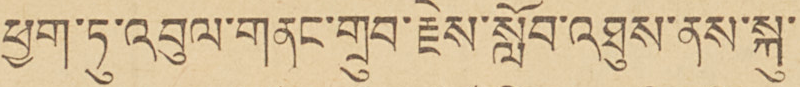ཕྱག་ཏུ་འབུལ་གནང་གྲུབ་རྗེས་སློབ་འཐུས་ནས་སྐུ་
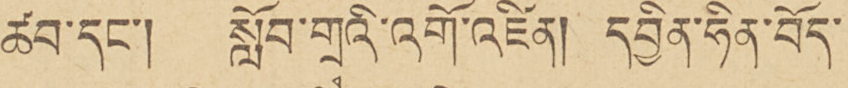ཚབ་དང་། སློབ་གྲྭའི་འགོ་འཛིན། དབྱིན་ཧིན་བོད་
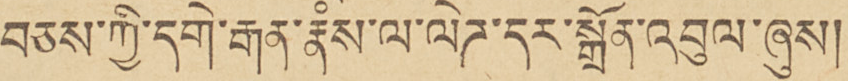བཅས་ཀྱི་དགེ་རྒན་རྣཾས་ལ་ལེཊ་དར་སྒྲོན་འབུལ་ཞུས།
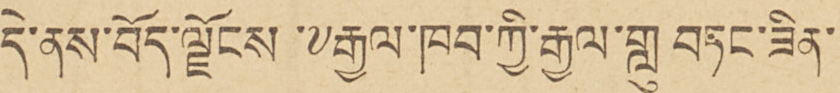དེ་ནས་བོད་ལྗོངས་༸རྒྱལ་ཁབ་ཀྱི་རྒྱལ་གླུ་བཏང་ཟིན་
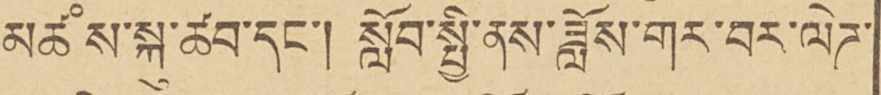མཚཾས་སྐུ་ཚབ་དང་། སློབ་སྤྱི་ནས་ཟློས་གར་བར་ལེཊ་
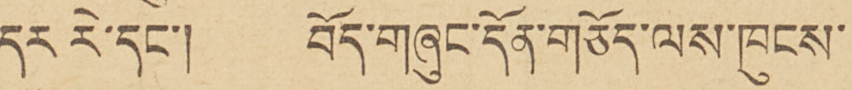དར རེ་དང་། བོད་གཞུང་དོན་གཅོད་ལས་ཁུངས་
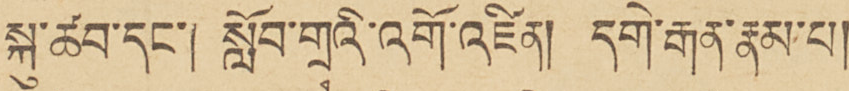སྐུ་ཚབ་དང་། སློབ་གྲྭའི་འགོ་འཛིན། དགེ་རྒན་རྣམ་པ།
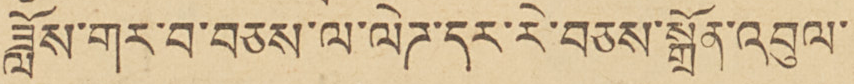ཟློས་གར་བ་བཅས་ལ་ལེཊ་དར་རེ་བཅས་སྒྲོན་འབུལ་
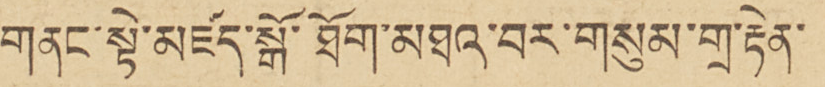གནང་སྟེ་མཛད་སྒོ་ཐོག་མཐའ་བར་གསུམ་གྲ་རྟེན་
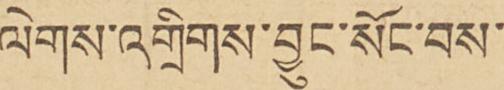ལེགས་འགྲིགས་བྱུང་སོང་བས་
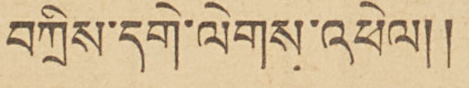བཀྲིས་དགེ་ལེགས་འཕེལ།།
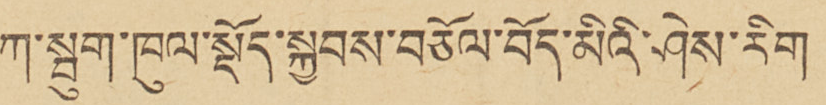ཀ་སྦུག་ཁུལ་སྡོད་སྐྱབས་བཅོལ་བོད་མིའི་ཤེས་རིག
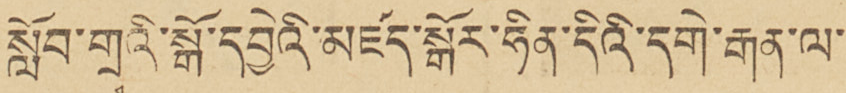སློབ་གྲྭའི་སྒོ་དབྱེའི་མཛད་སྒོར་ཧིན་དིའི་དགེ་རྒན་ལ་
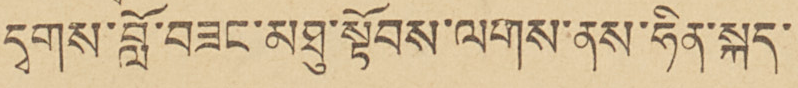དྭགས་བློ་བཟང་མཐུ་སྟོབས་ལགས་ནས་ཧིན་སྐད་
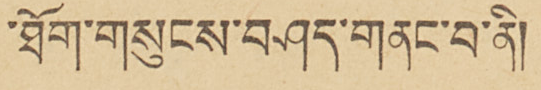་ཐོག་གསུངས་བཤད་གནང་བ་ནི།
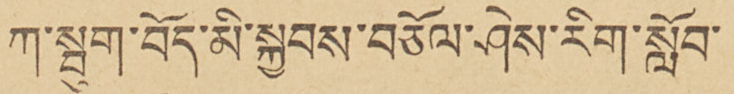ཀ་སྦུག་བོད་མི་སྐྱབས་བཅོས་ཤེས་རིག་སློབ་
